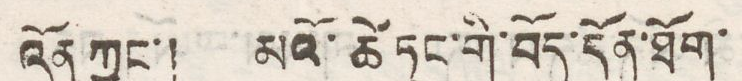འོན ཀྱང་། མའོ་ཚེ ཏུང་གི་བོད་དོན་ཐོག་
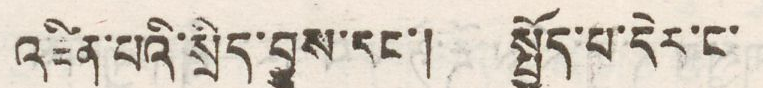འཛིན་པའི་སྲིད་བྱུས་དང་། སྤྱོད་པ་དེར་ང་
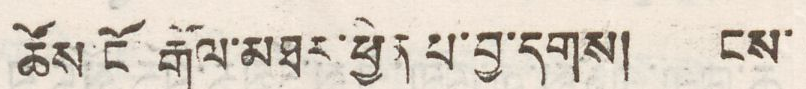ཚོས་ངོ་རྒོལ་མཐར་ཕྱིན པ་བྱ་དགས། ངས་
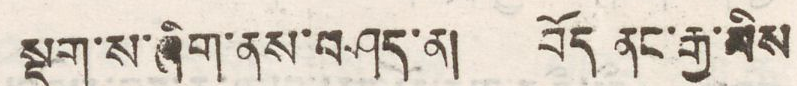སྡུག་ས་ཞིག་ནས་བཤད་ན། བོད ནང་རྒྱ་མིས
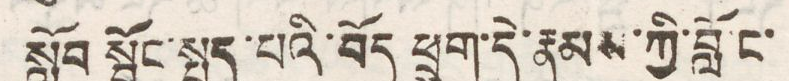སློབ སྦྱོང་སྤྲད་པའི་བོད ཕྲུག་དེ་རྣམས་ཀྱི་བློ་ང་
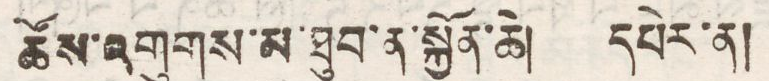ཚོས་འགུགས་མ་ཐུབ་ན་སྐྱོན་ཆེ། དཔེར་ན།
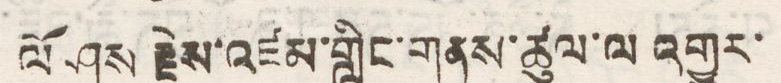ལོ ཤས རྗེས་འཛམ་གླིང་གནས་ཚུལ་ལ འགྱུར་
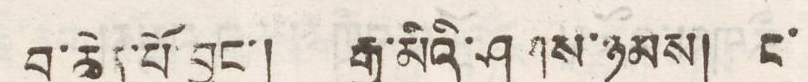བ་ཆེན་པོ་བྱུང་། རྒྱ་མིའི་ཤུགས་ཉམས། ང་
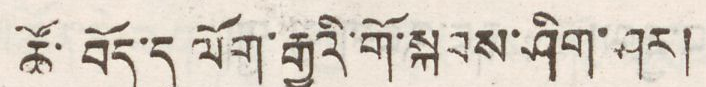ཚོ་བོད་དུ ལོག་རྒྱུའི་གོ་སྐབས་ཤིག་ཤར།
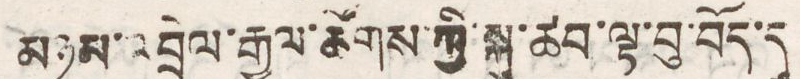མཉམ་འབྲེལ་རྒྱལ་ཚོགས་ཀྱི་སྐུ་ཚབ་ལྟ་བུ་བོད་དུ
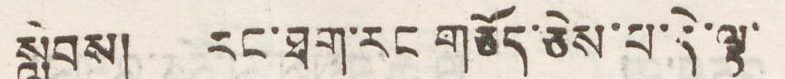སླེབས། རང་ཐག་རང གཅོད་ཅེས་པ་དེ་ལྟ་
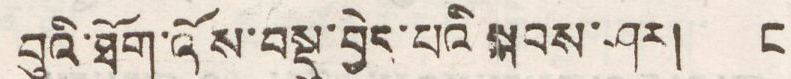བུའི་ཐོག་འོས་བསྡུ་བྱེད་པའི སྐབས་ཤར། ང
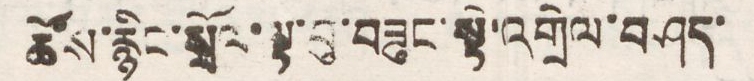ཚོས་རྙིང་སྲོལ་ལྟ་བུ་བཟུང་སྟེ་འགྲེལ་བཤད་
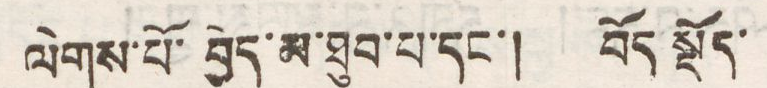ལེགས་པོ་བྱེད་མ་ཐུབ་པ་དང་། བོད སྡོད་
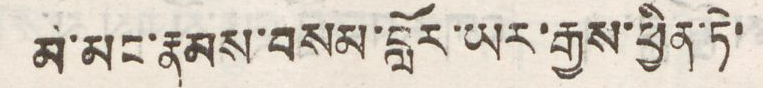མ་མང་རྣམས་བསམ་བློར་ཡར་རྒྱས་ཕྱིན་ཏེ་
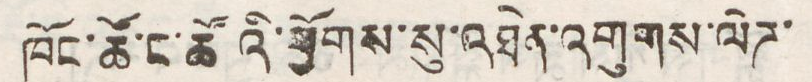ཁོང་ཚོ་ང་ཚོའི་ཕྱོགས་སུ་འཐེན་འགུགས་ལེཌ་
